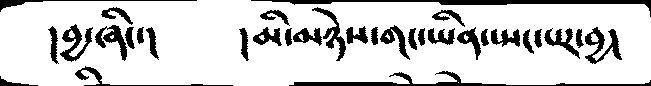།བྱ་ཞིང་།         ། མི་མཉེས་གང་ཡིན་སྤང་པར་བྱ།
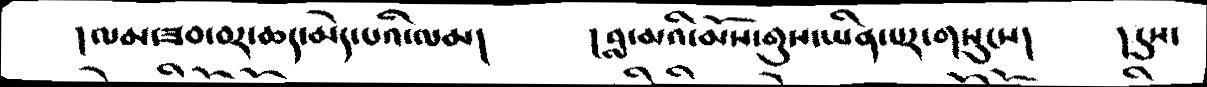། ལམ་ཟབ་བར་ཆད་མེད་པའི་ལམ།       །བླ་མའི་མོས་གུས་ཡིན་པར་གསུངས།    །དུས་
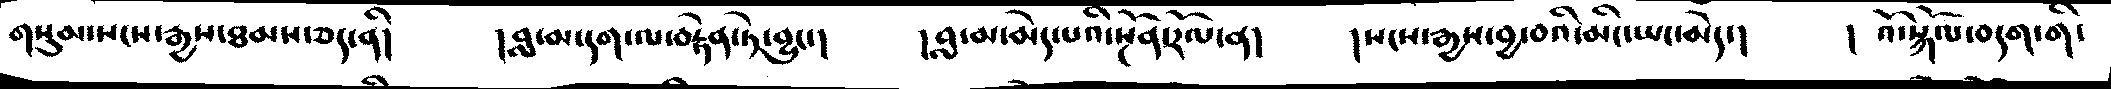གསུམ་སངས་རྒྱས་ཐམས་ཅད་ནི།   །བླ་མ་དག་ལ་བརྟེན་ཏེ་བྱུང་།   །བླ་མ་མེད་པའི་སྔོན་རོལ་ན།  །སངས་རྒྱས་བྱ་བའི་མིང་ཡང་མེད་།   ། འོ་སྐོལ་བདག་གི་
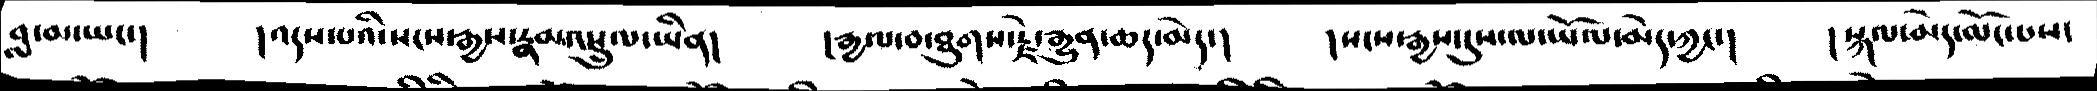བླ་མ་ཡང་།    །འདས་པའི་སངས་རྒྱས་རྣམ་འཕྲུལ་ཡིན།   །རྒྱལ་བ་ཐུགས་རྗེ་རྒྱུན་ཆད་མེད་།   །སངས་རྒྱས་དུས་ལ་ཡོལ་མེད་ཀྱང་།   །སྐལ་མེད་མོང་པས་
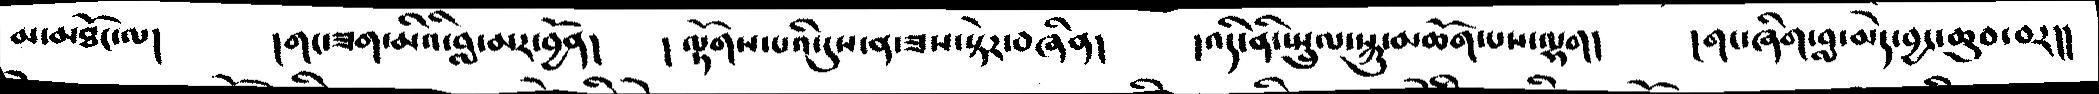མ་མཐོང་ལ།    །གང་ཟག་མིའི་བླ་མར་བྱོན།   ། ལྟོགས་པའི་དུས་ན་ཟས་སྟེར་བཞིན།   །འདི་ནི་སྤྲུལ་སྐུ་མཆོག་པས་ལྷག།   །གང་ཞིག་བླ་མེད་བྱང་ཆུབ་བར།།
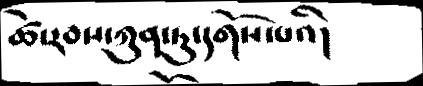ཚེ་རབས་ཀུན་ཏུ་དགོས་པའི།
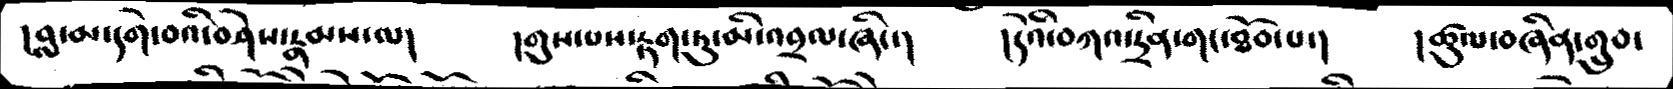།བླ་མ་དགེ་བའི་བཤེས་རྣམས་ལ།    །གུས་པས་རྟག་ཏུ་མི་འབྲལ་ཞིང་།    །དེའི་བཀའ་དྲིན་གང་ཐོབ་པ་།    །ཚུལ་བཞིན་གྲུབ་
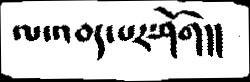ལ་འབད་པར་ཤོག།།
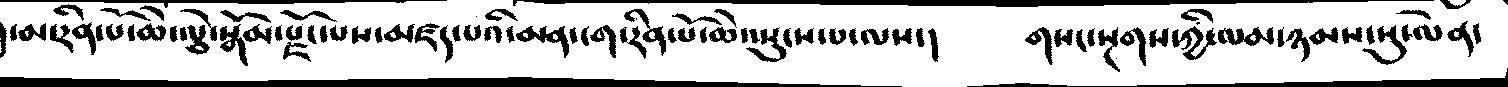།་མ་རིན་པོ་ཆེ་ལྕེ་སྒོམ་རྫོང་པས་མཛད་པའི་མན་ངག་རིན་པོ་ཆེ་སྤུངས་པ་ལས་།     གསང་སྔགས་ཀྱི་ལམ་ཉམས་སུ་ལེན་
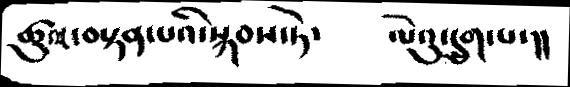ཚུལབསྟན་པའི་སྐབས་ཏེ་   ལེའུ་དྲུག་པ་།།
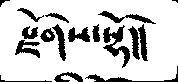རྫོགས་སྷོ།།
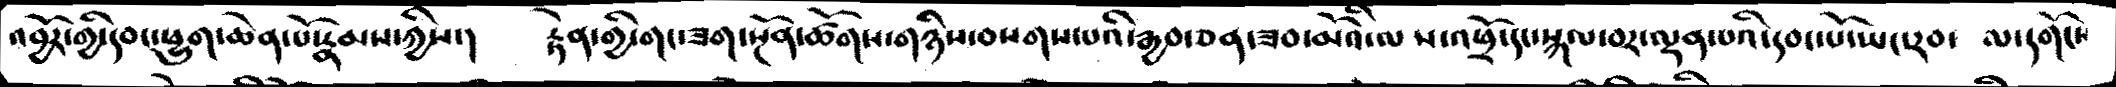འབྱོར་གྱི་དབང་ཕྱུག་ཆེན་པོ་རྣམས་ཀྱིས་།   རྟེན་གྱི་གང་ཟག་སྔོན་ཚོགས་གཉིས་བསགས་པའི་རྒྱབ་ཅན་ཟབ་མོའི་ལས་འཕྲོ་དང་སྐལ་བར་ལྡན་པའི་དབང་པོ་ཡང་རབ་ ལ་དགོངས
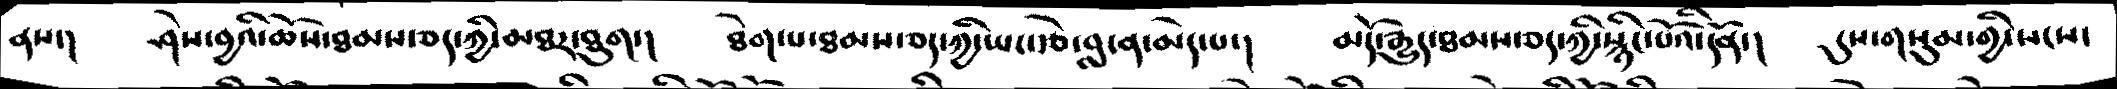ནས་།   ཤེས་བྱའི་ཆོས་ཐམས་ཅད་ཀྱི་མཐར་ཐུག་།  ཐེག་པ་ཐམས་ཅད་ཀྱི་ཡང་རྩེ་བླ་ན་མེད་པ་།   མདོ་རྒྱུད་ཐམས་ཅད་ཀྱི་སྙིང་པོའི་དོན་།   དུས་གསུམ་གྱི་སངས་
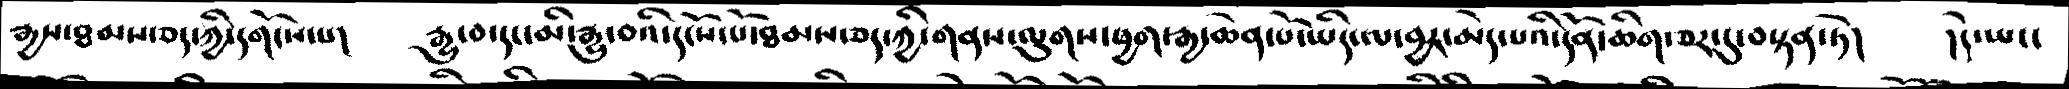རྒྱས་ཐམས་ཅད་ཀྱི་དགོངས་པ།    རྒྱུ་བ་དང་མི་རྒྱུ་བའི་དངོས་པོ་ཐམས་ཅད་ཀྱི་གནས་ལུགས་ཕྱག་རྒྱ་ཆེན་པོ་ཡིད་ལ་བྱར་མེད་པའི་དོན་ཆིག་ཅར་དུ་བསྟན་ཏེ།   །དེ་ཡང་
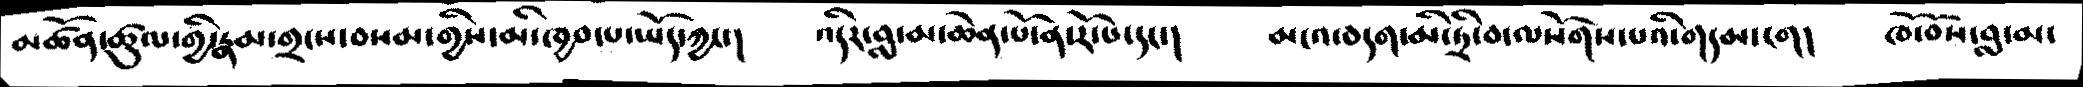མཚོན་ཚུལ་གྱི་རྣམ་གྲངས་བསམ་གྱིས་མི་ཁྱབ་པ་ཡོད་ཀྱང་།   འདིར་བླ་མ་ཆེན་པོ་ན་རོ་པ་དང།   མངའ་བདག་མི་ཏྲི་བ་ལསོགས་པའི་གདམ་ངག།   ཁོ་བོས་བླ་མ་
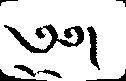༄༅།
